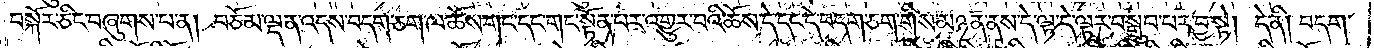བསྐོར་ཅིང་བཞུགས་པ་ན། བཅོམ་ལྡན་འདས་བདག་ཅག་ལ་ཆོས་གང་དང་གང་སྟོན་པར་འགྱུར་བའི་ཆོས་དེ་དང་དེ་བདག་ཅག་གིས་མཉན་ནས་དེ་ལྟ་དེ་ལྟར་བསྒྲུབ་པར་བྱ་སྟེ། དེ་ནི། བདག་
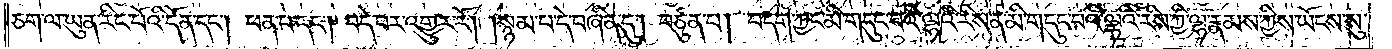ཅག་ལ་ཡུན་རིང་པོའི་དོན་དང༌། ཕན་པ་དང༌། བདེ་བར་འགྱུར་རོ། །སྙམ་པ་དེ་བཞིན་དུ། བཙུན་པ། བདག་ཀྱང་མི་གདུང་བའི་ལྷའི་རིས་ན་མི་གདུང་བའི་ལྷའི་རིས་ཀྱི་ལྷ་རྣམས་ཀྱིས་ཡོངས་སུ་
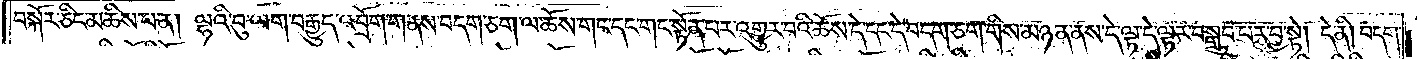བསྐོར་ཅིང་མཆིས་པ་ན། ལྷའི་བུ་ལག་བརྒྱུད་འབྲོག་གནས་བདག་ཅག་ལ་ཆོས་གང་དང་གང་སྟོན་པར་འགྱུར་བའི་ཆོས་དེ་དང་དེ་བདག་ཅག་གིས་མཉན་ནས་དེ་ལྟ་དེ་ལྟར་བསྒྲུབ་པར་བྱ་སྟེ། དེ་ནི། བདག་
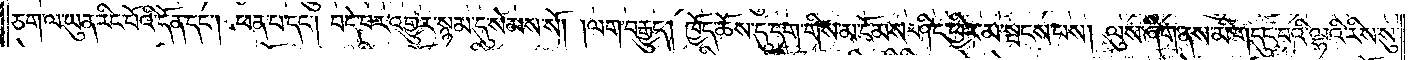ཅག་ལ་ཡུན་རིང་པོའི་དོན་དང༌། ཕན་པ་དང༌། བདེ་བར་འགྱུར་སྙམ་དུ་སེམས་སོ། །ལག་བརྒྱུད། ཁྱོད་ཆོས་དུ་དག་གིས་མ་ངོམས་ཤིང་ཕྱིར་མ་སྤངས་པས། ལུས་ཞིག་ནས་མི་གདུང་བའི་ལྷའི་རིས་སུ་
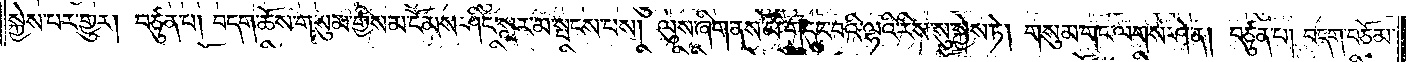སྐྱེས་པར་གྱུར། བཙུན་པ། བདག་ཆོས་གསུམ་གྱིས་མ་ངོམས་ཤིང་སླར་མ་སྤངས་པས། ལུས་ཞིག་ནས་མི་གདུང་བའི་ལྷའི་རིས་སུ་སྐྱེས་ཏེ། གསུམ་གང་ལགས་ཤེ་ན། བཙུན་པ། བདག་བཅོམ་
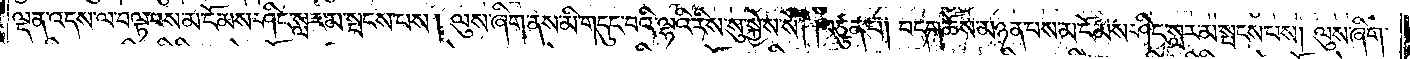ལྡན་འདས་ལ་བལྟ་བས་མ་ངོམས་ཤིང་སླར་མ་སྤངས་པས། ལུས་ཞིག་ནས་མི་གདུང་བའི་ལྷའི་རིས་སུ་སྐྱེས་སོ། །བཙུན་པ། བདག་ཆོས་མཉན་པས་མ་ངོམས་ཤིང་སླར་མ་སྤངས་པས། ལུས་ཞིག་
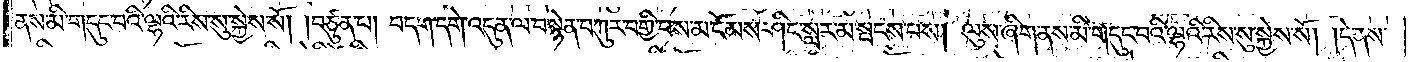ནས་མི་གདུང་བའི་ལྷའི་རིས་སུ་སྐྱེས་སོ། །བཙུན་པ། བདག་དགེ་འདུན་ལ་བསྙེན་བཀུར་བགྱི་བས་མ་ངོམས་ཤིང་སླར་མ་སྤངས་པས། ལུས་ཞིག་ནས་མི་གདུང་བའི་ལྷའི་རིས་སུ་སྐྱེས་སོ། །དེ་ནས་
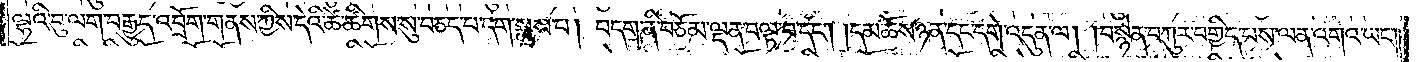ལྷའི་བུ་ལག་བརྒྱུད་འབྲོག་གནས་ཀྱིས་དེའི་ཚེ་ཚིགས་སུ་བཅད་པ་དག་སྨྲས་པ། བདག་ནི་བཅོམ་ལྡན་བལྟ་བ་དང༌། །དམ་ཆོས་ཉན་དང་དགེ་འདུན་ལ། །བསྙེན་བཀུར་བགྱིད་པས་ལན་འགའ་ཡང༌།
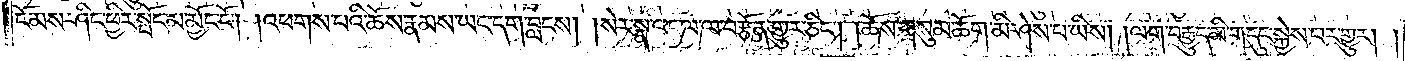ངོམས་ཤིང་ཕྱིར་སྤོང་མ་མྱོང་ངོ༌། །འཕགས་པའི་ཆོས་རྣམས་ཡང་དག་བླངས། །སེར་སྣ་འདུལ་ལ་བརྩོན་གྱུར་ཅིང༌། །ཆོས་གསུམ་ཆོག་མི་ཤེས་པ་ཡིས། །ལག་བརྒྱུད་མི་གདུང་སྐྱེས་པར་གྱུར། །
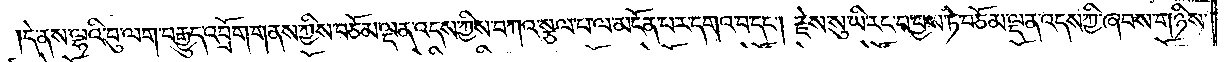དེ་ནས་ལྷའི་བུ་ལག་བརྒྱུད་འབྲོག་གནས་ཀྱིས་བཅོམ་ལྡན་འདས་ཀྱིས་བཀའ་སྩལ་པ་ལ་མངོན་པར་དགའ་བ་དང༌། རྗེས་སུ་ཡི་རང་བ་བྱས་ཏེ་བཅོམ་ལྡན་འདས་ཀྱི་ཞབས་གཉིས་
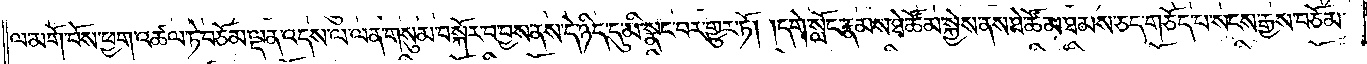ལ་མགོ་བོས་ཕྱག་འཆལ་ཏེ་བཅོམ་ལྡན་འདས་ལ་ལན་གསུམ་བསྐོར་བ་བྱས་ནས་དེ་ཉིད་དུ་མི་སྣང་བར་གྱུར་ཏོ། །དགེ་སློང་རྣམས་ཐེ་ཚོམ་སྐྱེས་ནས་ཐེ་ཚོམ་ཐམས་ཅད་གཅོད་པ་སངས་རྒྱས་བཅོམ་
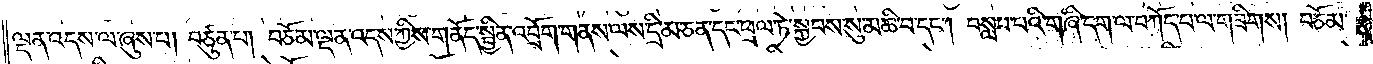ལྡན་འདས་ལ་ཞུས་པ། བཙུན་པ། བཅོམ་ལྡན་འདས་ཀྱིས་གནོད་སྦྱིན་འབྲོག་གནས་ལས་དྲི་མ་ཅན་དང་ཕྲལ་ཏེ་སྐྱབས་སུ་མཆི་བ་དང༌། བསླབ་པའི་གཞི་དག་ལ་བཀོད་པ་ལ་གཟིགས། བཅོམ་
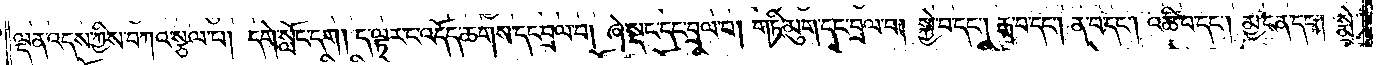ལྡན་འདས་ཀྱིས་བཀའ་སྩལ་པ། དགེ་སློང་དག །ད་ལྟར་ང་འདོད་ཆགས་དང་བྲལ་བ། ཞེ་སྡང་དང་བྲལ་བ། གཏི་མུག་དང་བྲལ་བ། སྐྱེ་བ་དང༌། རྒ་བ་དང༌། ན་བ་དང༌། འཆི་བ་དང༌། མྱ་ངན་དང༌། སྨྲེ་
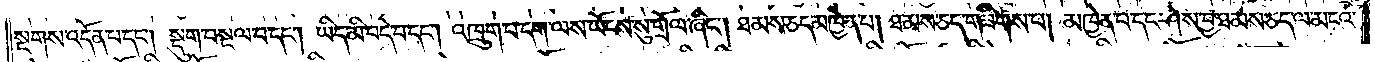སྔགས་འདོན་པ་དང༌། སྡུག་བསྔལ་བ་དང༌། ཡིད་མི་བདེ་བ་དང༌། འཁྲུག་པ་དག་ལས་ཡོངས་སུ་གྲོལ་ཞིང༌། ཐམས་ཅད་མཁྱེན་པ། ཐམས་ཅད་གཟིགས་པ། མཁྱེན་པ་དང་ཤེས་བྱ་ཐམས་ཅད་ལ་མངའ་
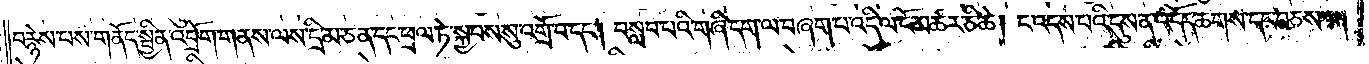བརྙེས་པས་གནོད་སྦྱིན་འབྲོག་གནས་ལས་དྲི་མ་ཅན་དང་ཕྲལ་ཏེ་སྐྱབས་སུ་འགྲོ་བ་དང༌། བསླབ་པའི་གཞི་དག་ལ་བཞག་པ་འདི་ལ་ངོ་མཚར་ཅི་ཆེ། ང་འདས་པའི་དུས་ན་འདོད་ཆགས་དང་བཅས་པ།
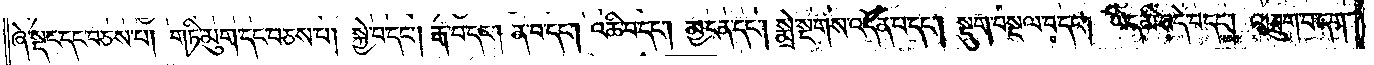ཞེ་སྡང་དང་བཅས་པ། གཏི་མུག་དང་བཅས་པ། སྐྱེ་བ་དང༌། རྒ་བ་དང༌། ན་བ་དང༌། འཆི་བ་དང༌། མྱ་ངན་དང༌། སྨྲེ་སྔགས་འདོན་པ་དང༌། སྡུག་བསྔལ་བ་དང༌། ཡིད་མི་བདེ་བ་དང༌། འཁྲུག་པ་དག་
